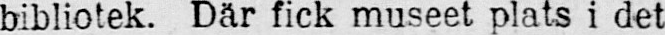bibliotek. Där fick museet plats i det
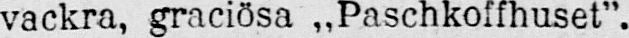vackra, graciösa ,,Paschkoffhuset”.
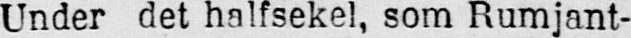Under det halfsekel, som Rumjant-
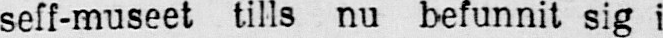seff-museet tills nu befunnit sig i
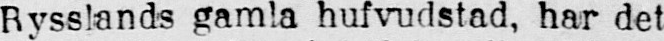Rysslands gamla hufvudstad, har det
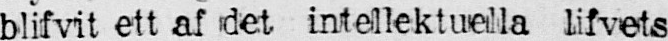blifvit ett af det intellektuella lifvets
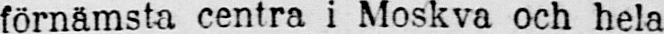förnämsta centra i Moskva och hela
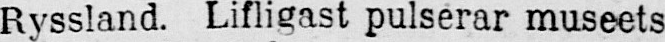Ryssland. Lifligast pulserar museets
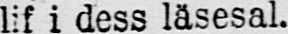lif i dess läsesal.
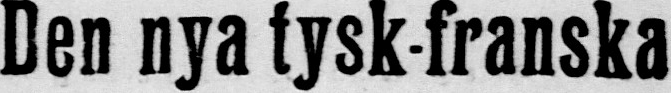Den nya tysk-franska
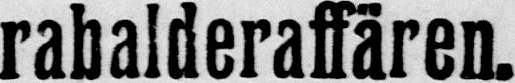rabalderaffären.
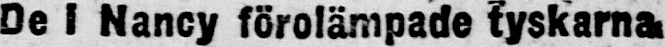De I Nancy förolämpade tyskarna.
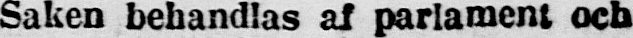Saken behandlas af parlament och
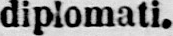diplomati.
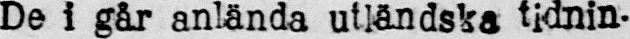De i går anlända utlåndska tidnin-
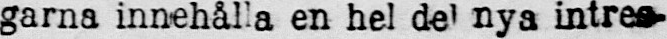garna innehålla en hel del nya intres-
